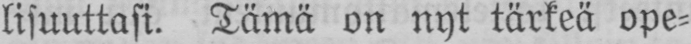lisuuttasi. Tämä on nyt tärkeä ope-
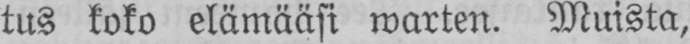tus koko elämääsi warten. Muista,
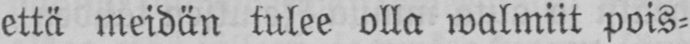että meidän tulee olla walmiit pois-
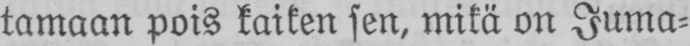tamaan pois kaiken sen, mikä on Juma-
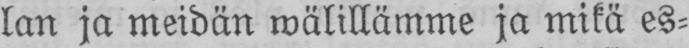lan ja meidän wälillämme ja mikä es-
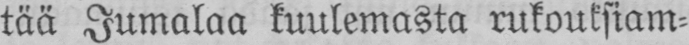tää Jumalaa kuulemasta rukouksiam-
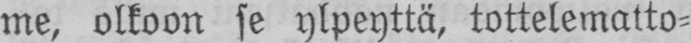me, olkoon se ylpeyttä, tottelematto-
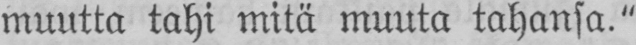muutta tahi mitä muuta tahansa."
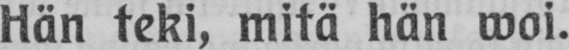Hän teki, mitä hän woi.
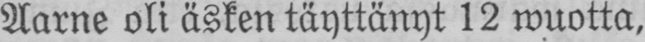Aarne oli äsken täyttänyt 12 wuotta,
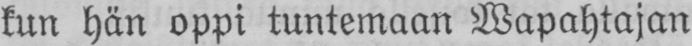kun hän oppi tuntemaan Wapahtajan
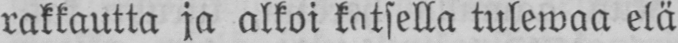rakkautta ja alkoi katsella tulewaa elä-
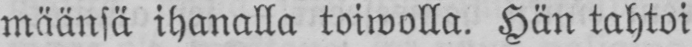määnsä ihanalla toiwolla. Hän tahtoi
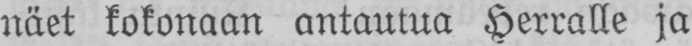näet kokonaan antautua Herralle ja
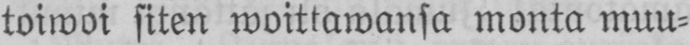toiwoi siten woittawansa monta muu-
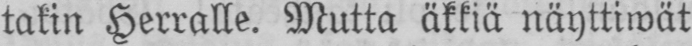takin Herralle. Mutta äkkiä näyttiwät
